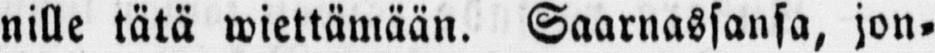nille tätä wiettämään. Saarnassansa, jon-
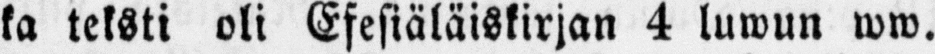ka teksti oli Efesiäläiskirjan 4 luwun ww.
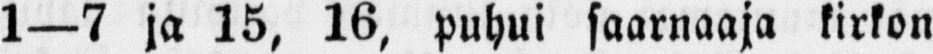1—7 ja 15, 16, puhui saarnaaja kirkon
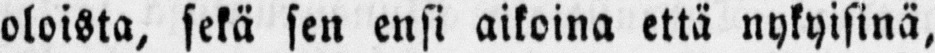oloista, sekä sen ensi aikoina että nykyisinä,
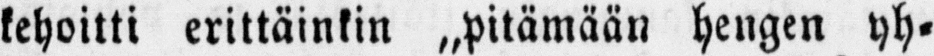kehoitti erittäinkin „pitämään hengen yh-
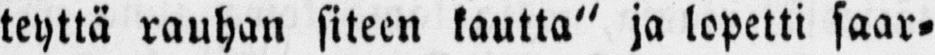teyttä rauhan siteen kautta" ja lopetti saar-
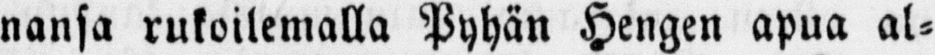nansa rukoilemalla Pyhän Hengen apua al-
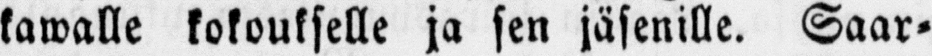kawalle kokoukselle ja sen jäsenille. Saar-
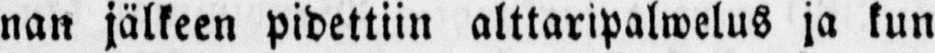nan jälkeen pidettiin alttaripalwelus ja kun
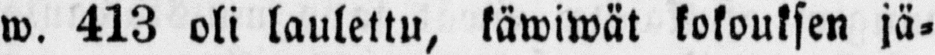w. 413 oli laulettu, käwiwät kokouksen jä-
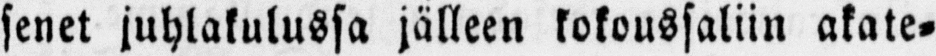senet juhlakulussa jälleen kokoussaliin akate-
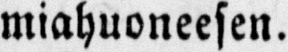miahuoneesen.
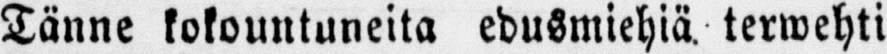Tänne kokountuneita edusmiehiä terwehti
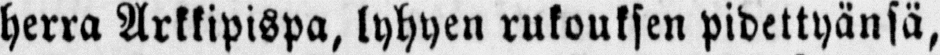herra Arkkipispa, lyhyen rukouksen pidettyänsä,
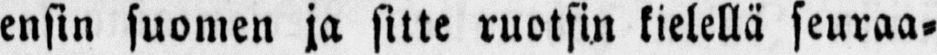ensin suomen ja sitte ruotsin kielellä seuraa,
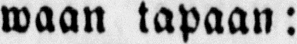waan tapaan:
